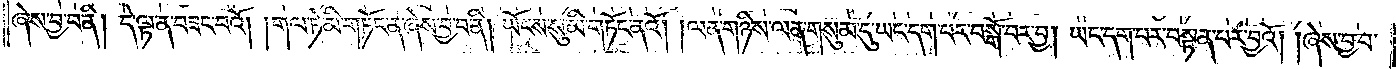ཞེས་བྱ་བ་ནི། དེ་ལྟ་ན་བཟང་བའོ། །གལ་ཏེ་མི་གཏོང་ན་ཞེས་བྱ་བ་ནི། ཡོངས་སུ་མི་གཏོང་ནའོ། །ལན་གཉིས་ལན་གསུམ་དུ་ཡང་དག་པར་བསྒོ་བར་བྱ། ཡང་དག་པར་བསྟན་པར་བྱའོ། །ཞེས་བྱ་བ་
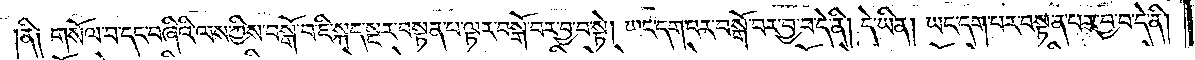ནི༏ གསོལ་བ་དང་བཞིའི་ལས་ཀྱིས་བསྒོ་བ་ཇི་སྐད་སྔར་བསྟན་པ་ལྟར་བསྒོ་བར་བྱ་བ་སྟེ། ཡང་དག་པར་བསྒོ་བར་བྱ་བ་དེ་ནི། དེ་ཡིན། ཡང་དག་པར་བསྟན་པར་བྱ་བ་དེ་ནི།
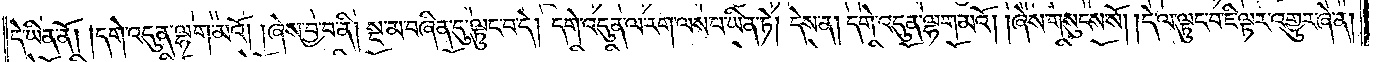དེ་ཡིན་ནོ། །དགེ་འདུན་ལྷག་མའོ། །ཞེས་བྱ་བ་ནི། སྔ་མ་བཞིན་དུ་ལྟུང་བ་དེ། དགེ་འདུན་ལ་རག་ལས་པ་ཡིན་ཏེ། དེས་ན། དགེ་འདུན་ལྷག་མའོ། །ཞེས་གསུངས་སོ། །དེ་ལ་ལྟུང་བ་ཇི་ལྟར་འགྱུར་ཞེ་ན།
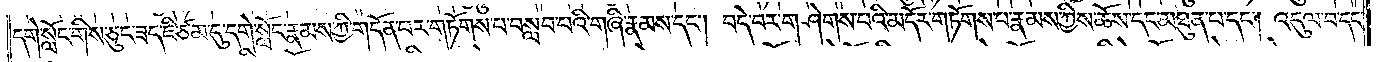དགེ་སློང་གིས་ཅུང་ཟད་ཇི་ཙམ་དུ་དགེ་སློང་རྣམས་ཀྱི་གདོན་པར་གཏོགས་པ་བསླབ་པའི་གཞི་རྣམས་དང༌། བདེ་བར་གཤེགས་པའི་མདོར་གཏོགས་པ་རྣམས་ཀྱིས་ཆོས་དང་མཐུན་པ་དང༌། འདུལ་བ་དང་
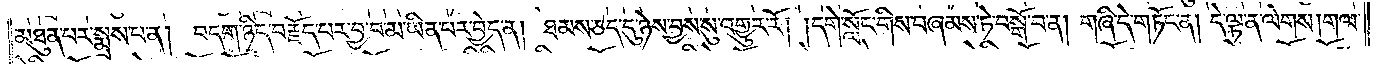མཐུན་པར་སྨྲས་པ་ན། བདག་ཉིད་བརྗོད་པར་བྱ་བ་མ་ཡིན་པར་བྱེད་ན། ཐམས་ཅད་དུ་ཉེས་བྱས་སུ་འགྱུར་རོ། །དགེ་སློང་གིས་བཞམས་ཏེ་བསྒོ་བ་ན། གཞི་དེ་གཏོང་ན། དེ་ལྟ་ན་ལེགས། གལ་
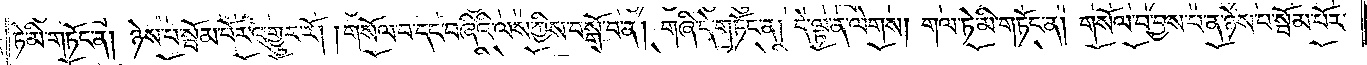ཏེ་མི་གཏོང་ན། ཉེས་པ་སྦོམ་པོར་འགྱུར་རོ། །གསོལ་བ་དང་བཞིའི་ལས་ཀྱིས་བསྒོ་བ་ན། གཞི་དེ་གཏོང་ན། དེ་ལྟ་ན་ལེགས། གལ་ཏེ་མི་གཏོང་ན། གསོལ་བ་བྱས་པ་ན་ཉེས་པ་སྦོམ་པོར་
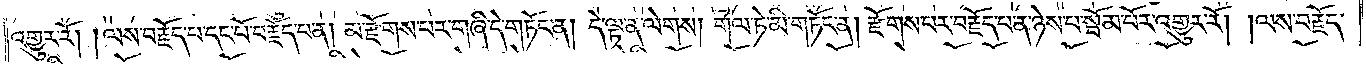འགྱུར་རོ། །ལས་བརྗོད་པ་དང་པོ་བརྗོད་པ་ན། མ་རྫོགས་པར་གཞི་དེ་གཏོང་ན། དེ་ལྟ་ན་ལེགས། གལ་ཏེ་མི་གཏོང་ན། རྫོགས་པར་བརྗོད་པ་ན་ཉེས་པ་སྦོམ་པོར་འགྱུར་རོ། །ལས་བརྗོད་
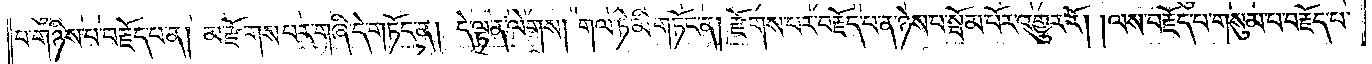པ་གཉིས་པ་བརྗོད་པ་ན། མ་རྫོགས་པར་གཞི་དེ་གཏོང་ན། དེ་ལྟ་ན་ལེགས། གལ་ཏེ་མི་གཏོང་ན། རྫོགས་པར་བརྗོད་པ་ན་ཉེས་པ་སྦོམ་པོར་འགྱུར་རོ། །ལས་བརྗོད་པ་གསུམ་པ་བརྗོད་པ་
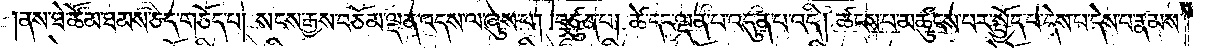ནས་ཐེ་ཚོམ་ཐམས་ཅད་གཅོད་པ། སངས་རྒྱས་བཅོམ་ལྡན་འདས་ལ་ཞུས་པ། བཙུན་པ། ཚེ་དང་ལྡན་པ་འདུན་པ་འདི། ཚངས་པ་མཚུངས་པར་སྤྱོད་པ་དེས་པ་དེས་པ་རྣམས་
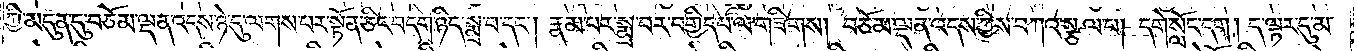ཀྱི་མདུན་དུ་བཅོམ་ལྡན་འདས་ཉེ་དུ་ལགས་པར་སྟོན་ཅིང་བདག་ཉིད་སྨྲ་བ་དང༌། རྣམ་པར་སྨྲ་བར་བགྱིད་པ་ལ་གཟིགས། བཅོམ་ལྡན་འདས་ཀྱིས་བཀའ་སྩལ་པ། དགེ་སློང་དག། ད་ལྟར་དུ་མ་
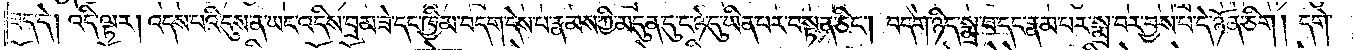ཟད་དེ། འདི་ལྟར། འདས་པའི་དུས་ན་ཡང་འདིས་བྲམ་ཟེ་དང་ཁྱིམ་བདག་དེས་པ་རྣམས་ཀྱི་མདུན་དུ་ང་ཉེ་དུ་ཡིན་པར་བསྟན་ཅིང༌། བདག་ཉིད་སྨྲ་བ་དང་རྣམ་པར་སྨྲ་བར་བྱས་པ་དེ་ཉོན་ཅིག། དགེ་
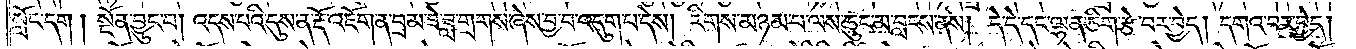སློང་དག། སྔོན་བྱུང་བ། འདས་པའི་དུས་ན་རྡོ་འཇོག་ན་བྲམ་ཟེ་ཟླ་གྲགས་ཞེས་བྱ་བ་འདུག་པ་དེས། རིགས་མཉམ་པ་ལས་ཆུང་མ་བླངས་ནས། དེ་དེ་དང་ལྷན་ཅིག་རྩེ་བར་བྱེད། དགའ་བར་བྱེད།
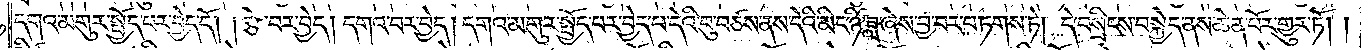དགའ་མགུར་སྤྱོད་པར་བྱེད་དོ། །རྩེ་བར་བྱེད། དགའ་བར་བྱེད། དགའ་མགུར་སྤྱོད་པར་བྱེད་པ་དེའི་བུ་བཙས་ནས་དེའི་མིང་ཉི་ཟླ་ཞེས་བྱ་བར་བཏགས་ཏེ། དེ་བསྲིངས་བསྐྱེད་ནས་ཆེན་པོར་གྱུར་ཏོ། །
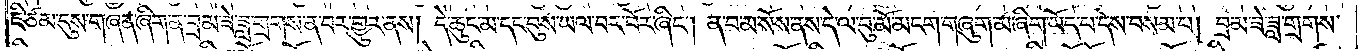ཇི་ཙམ་དུས་གཞན་ཞིག་ན་བྲམ་ཟེ་ཟླ་གྲགས་ན་བར་གྱུར་ནས། དེ་ཆུང་མ་དང་བུས་ཡལ་བར་བོར་ཞིང༌། ན་བ་མ་སོས་ནས་དེ་ལ་བུ་མོ་མངག་གཞུག་མ་ཞིག་ཡོད་པ་དེས་བསམ་པ། བྲམ་ཟེ་ཟླ་གྲགས་
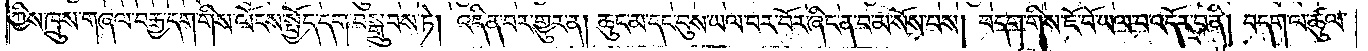ཀྱིས་ཁྲུས་གཞལ་བརྒྱ་དག་གིས་ལོངས་སྤྱོད་དག་བསྒྲུབས་ཏེ། འདི་ན་བར་གྱུར་ན། ཆུང་མ་དང་བུས་ཡལ་བར་བོར་ཞིང་ན་བ་མ་སོས་པས། བདག་གིས་ཇོ་བོ་ཡལ་བ་འདོར་བ་ནི། བདག་ལ་ཚུལ་
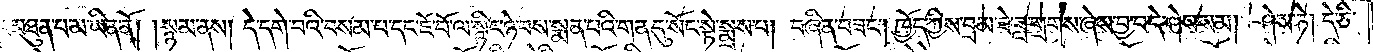དང་མཐུན་མ་ཡིན་ནོ། །སྙམ་ནས། དེ་དགེ་བའི་བསམ་པ་དང་ཇོ་བོ་ལ་སྙིང་ཉེ་བས་སྨན་པའི་གན་དུ་སོང་སྟེ་སྨྲས་པ། བཞིན་བཟང༌། ཁྱོད་ཀྱིས་བྲམ་ཟེ་ཟླ་གྲགས་ཞེས་བྱ་བ་དེ་ཤེས་སམ། ཤེས་ཏེ། དེ་ཅི་
